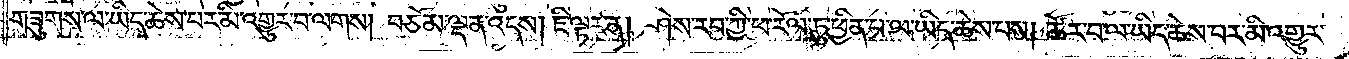གཟུགས་ལ་ཡིད་ཆེས་པར་མི་འགྱུར་བ་ལགས། བཅོམ་ལྡན་འདས། ཇི་ལྟར་ན། ཤེས་རབ་ཀྱི་ཕ་རོལ་ཏུ་ཕྱིན་པ་ལ་ཡིད་ཆེས་པས། ཚོར་བ་ལ་ཡིད་ཆེས་པར་མི་འགྱུར་
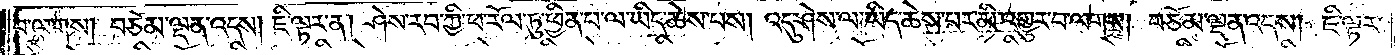བ་ལགས། བཅོམ་ལྡན་འདས། ཇི་ལྟར་ན། ཤེས་རབ་ཀྱི་ཕ་རོལ་ཏུ་ཕྱིན་པ་ལ་ཡིད་ཆེས་པས། འདུ་ཤེས་ལ་ཡིད་ཆེས་བར་མི་འགྱུར་བ་ལགས། བཅོམ་ལྡན་འདས། ཇི་ལྟར་
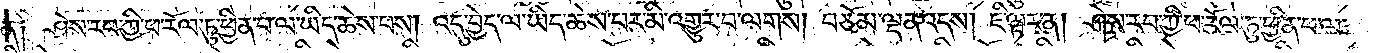ན༑ ཤེས་རབ་ཀྱི་ཕ་རོལ་ཏུ་ཕྱིན་པ་ལ་ཡིད་ཆེས་པས། འདུ་བྱེད་ལ་ཡིད་ཆེས་པར་མི་འགྱུར་བ་ལགས། བཅོམ་ལྡན་འདས། ཇི་ལྟར་ན། ཤེས་རབ་ཀྱི་ཕ་རོལ་ཏུ་ཕྱིན་པ་ལ་
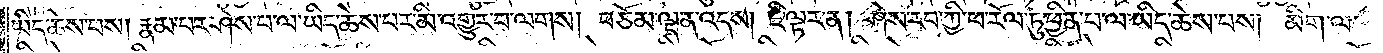ཡིད་ཆེས་པས། རྣམ་པར་ཤེས་པ་ལ་ཡིད་ཆེས་པར་མི་འགྱུར་བ་ལགས། བཅོམ་ལྡན་འདས། ཇི་ལྟར་ན། ཤེས་རབ་ཀྱི་ཕ་རོལ་ཏུ་ཕྱིན་པ་ལ་ཡིད་ཆེས་པས། མིག་ལ་
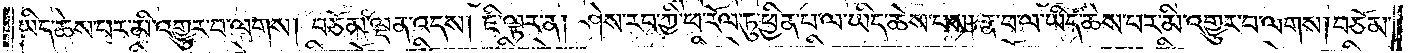ཡིད་ཆེས་པར་མི་འགྱུར་བ་ལགས། བཅོམ་ལྡན་འདས། ཇི་ལྟར་ན། ཤེས་རབ་ཀྱི་ཕ་རོལ་ཏུ་ཕྱིན་པ་ལ་ཡིད་ཆེས་པས། རྣ་བ་ལ་ཡིད་ཆེས་པར་མི་འགྱུར་བ་ལགས། བཅོམ་
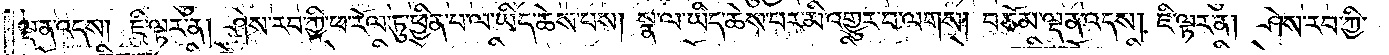ལྡན་འདས། ཇི་ལྟར་ན། ཤེས་རབ་ཀྱི་ཕ་རོལ་ཏུ་ཕྱིན་པ་ལ་ཡིད་ཆེས་པས། སྣ་ལ་ཡིད་ཆེས་པར་མི་འགྱུར་བ་ལགས། བཅོམ་ལྡན་འདས། ཇི་ལྟར་ན། ཤེས་རབ་ཀྱི་
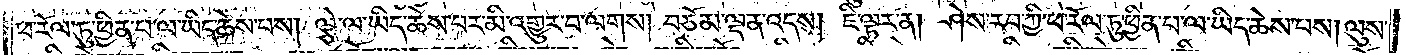ཕ་རོལ་ཏུ་ཕྱིན་པ་ལ་ཡིད་ཆེས་པས། ལྕེ་ལ་ཡིད་ཆེས་པར་མི་འགྱུར་བ་ལགས། བཅོམ་ལྡན་འདས། ཇི་ལྟར་ན། ཤེས་རབ་ཀྱི་ཕ་རོལ་ཏུ་ཕྱིན་པ་ལ་ཡིད་ཆེས་པས། ལུས་
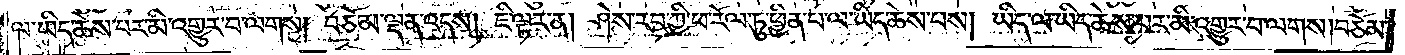ལ་ཡིད་ཆེས་པར་མི་འགྱུར་བ་ལགས། བཅོམ་ལྡན་འདས། ཇི་ལྟར་ན། ཤེས་རབ་ཀྱི་ཕ་རོལ་ཏུ་ཕྱིན་པ་ལ་ཡིད་ཆེས་པས། ཡིད་ལ་ཡིད་ཆེས་པར་མི་འགྱུར་བ་ལགས། བཅོམ་
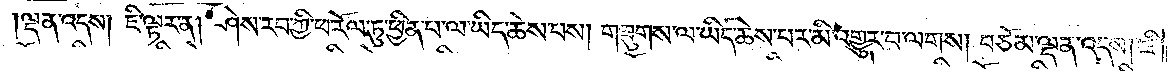ལྡན་འདས། ཇི་ལྟར་ན། ཤེས་རབ་ཀྱི་ཕ་རོལ་ཏུ་ཕྱིན་པ་ལ་ཡིད་ཆེས་པས། གཟུགས་ལ་ཡིད་ཆེས་པར་མི་འགྱུར་བ་ལགས། བཅོམ་ལྡན་འདས། ཇི་
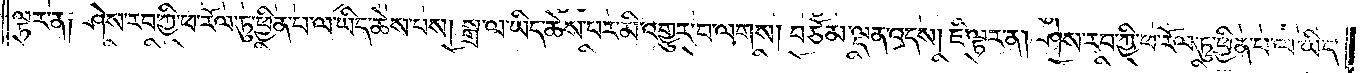ལྟར་ན༑ ཤེས་རབ་ཀྱི་ཕ་རོལ་ཏུ་ཕྱིན་པ་ལ་ཡིད་ཆེས་པས། སྒྲ་ལ་ཡིད་ཆེས་པར་མི་འགྱུར་བ་ལགས། བཅོམ་ལྡན་འདས། ཇི་ལྟར་ན། ཤེས་རབ་ཀྱི་ཕ་རོལ་ཏུ་ཕྱིན་པ་ལ་ཡིད་
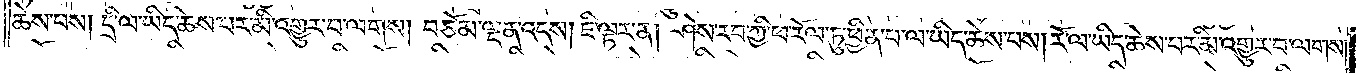ཆེས་པས། དྲི་ལ་ཡིད་ཆེས་པར་མི་འགྱུར་བ་ལགས། བཅོམ་ལྡན་འདས། ཇི་ལྟར་ན། ཤེས་རབ་ཀྱི་ཕ་རོལ་ཏུ་ཕྱིན་པ་ལ་ཡིད་ཆེས་པས། རོ་ལ་ཡིད་ཆེས་པར་མི་འགྱུར་བ་ལགས།
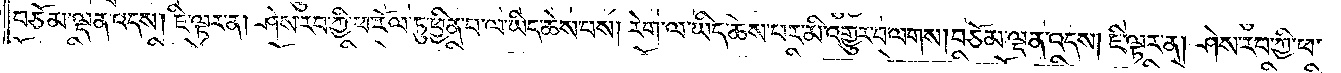བཅོམ་ལྡན་འདས། ཇི་ལྟར་ན། ཤེས་རབ་ཀྱི་ཕ་རོལ་ཏུ་ཕྱིན་པ་ལ་ཡིད་ཆེས་པས། རེག་ལ་ཡིད་ཆེས་པར་མི་འགྱུར་བ་ལགས། བཅོམ་ལྡན་འདས། ཇི་ལྟར་ན། ཤེས་རབ་ཀྱི་ཕ་
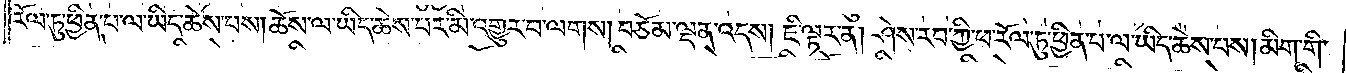རོལ་ཏུ་ཕྱིན་པ་ལ་ཡིད་ཆེས་པས། ཆོས་ལ་ཡིད་ཆེས་པར་མི་འགྱུར་བ་ལགས། བཅོམ་ལྡན་འདས། ཇི་ལྟར་ན། ཤེས་རབ་ཀྱི་ཕ་རོལ་ཏུ་ཕྱིན་པ་ལ་ཡིད་ཆེས་པས། མིག་གི་
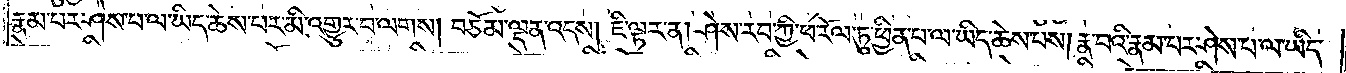རྣམ་པར་ཤེས་པ་ལ་ཡིད་ཆེས་པར་མི་འགྱུར་བ་ལགས། བཅོམ་ལྡན་འདས། ཇི་ལྟར་ན། ཤེས་རབ་ཀྱི་ཕ་རོལ་ཏུ་ཕྱིན་པ་ལ་ཡིད་ཆེས་པས། རྣ་བའི་རྣམ་པར་ཤེས་པ་ལ་ཡིད་
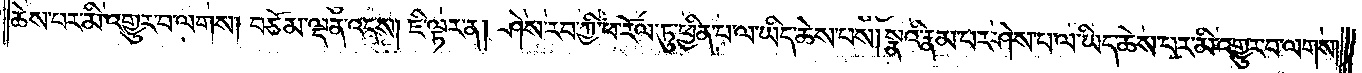ཆེས་པར་མི་འགྱུར་བ་ལགས། བཅོམ་ལྡན་འདས། ཇི་ལྟར་ན། ཤེས་རབ་ཀྱི་ཕ་རོལ་ཏུ་ཕྱིན་པ་ལ་ཡིད་ཆེས་པས། སྣའི་རྣམ་པར་ཤེས་པ་ལ་ཡིད་ཆེས་པར་མི་འགྱུར་བ་ལགས།
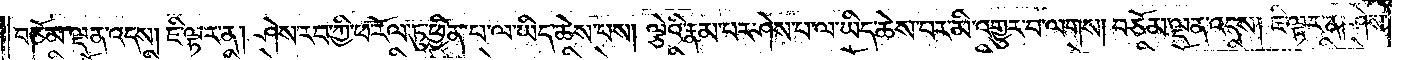བཅོམ་ལྡན་འདས། ཇི་ལྟར་ན། ཤེས་རབ་ཀྱི་ཕ་རོལ་ཏུ་ཕྱིན་པ་ལ་ཡིད་ཆེས་པས། ལྕེའི་རྣམ་པར་ཤེས་པ་ལ་ཡིད་ཆེས་པར་མི་འགྱུར་བ་ལགས། བཅོམ་ལྡན་འདས། ཇི་ལྟར་ན། ཤེས་
